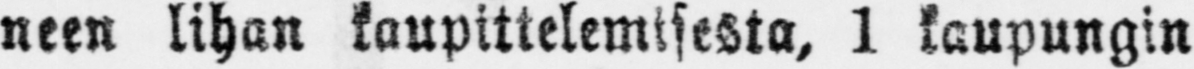neen lihan kaupittelemisesta, 1 kaupungin
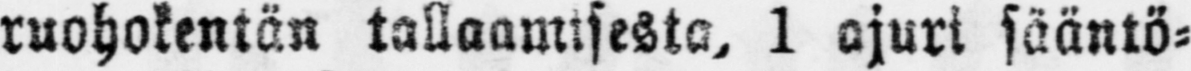ruohokentän tallaamisesta, 1 ajuri sääntö-
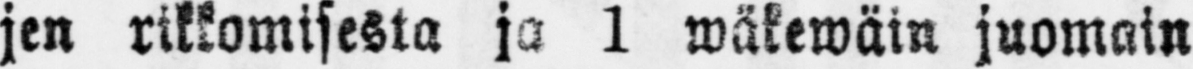jen rikkomisesta ja 1 wäkewäin juomain
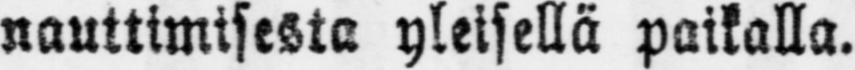nauttimisesta yleisellä paikalla.
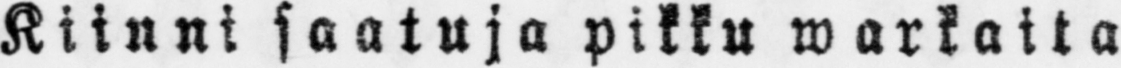Kiinni saatuja pikku warkaita
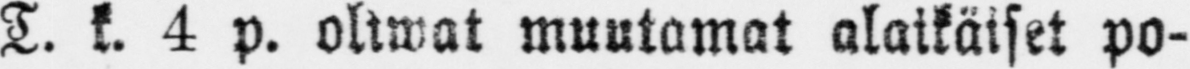T. k. 4 p. oliwat muutamat alaikäiset po-
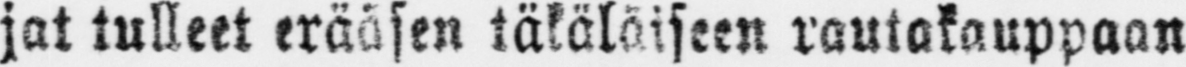jat tulleet erääsen täkäläiseen rautakauppaan
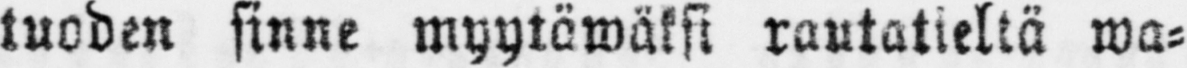tuoden sinne myytäwäksi rautatieltä wa-
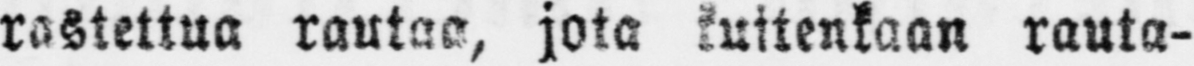rastettua rautaa, jota kuitenkaan rauta-
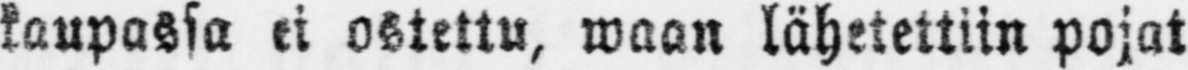kaupassa ei ostettu, waan lähetettiin pojat
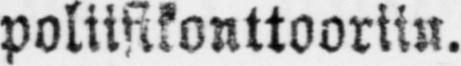poliisikonttooriin.
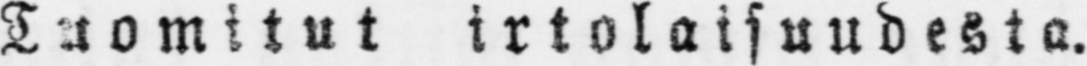Tuomitut irtolaisuudesta.
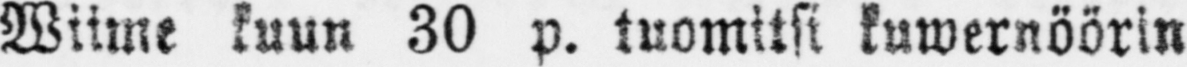Wiime kuun 30 p. tuomitsi kuwernöörin
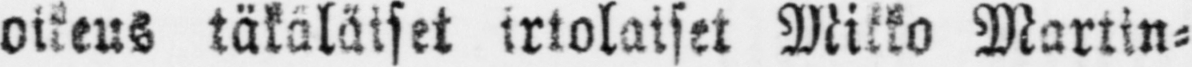oikeus täkäläiset irtolaiset Mikko Martin-
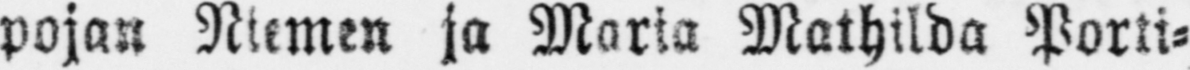pojan Niemen ja Maria Mathilda Porti-
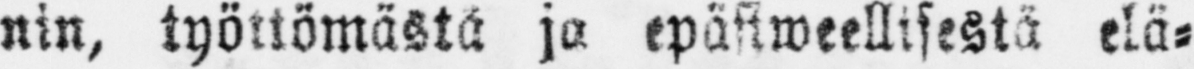nin, työttömästä ja epäsiweellisestä elä-
